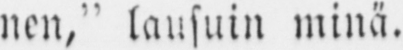nen,” lausuin minä.
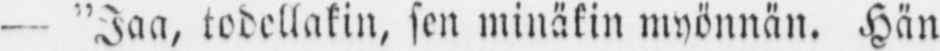— ”Jaa, todellakin, sen minäkin myönnän. Hän
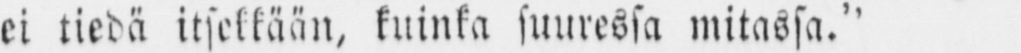ei tiedä itsekkään, kuinka suuressa mitassa.”
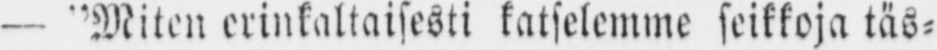— ”Miten erinkaltaisesti katselemme seikkoja täs-
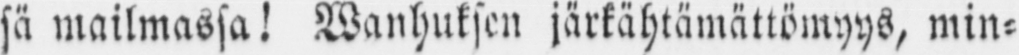sä mailmassa! Wanhuksen järkähtämättömyys, min-
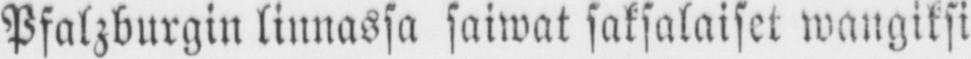Pfalzburgin linnassa saiwat saksalaiset wangiksi
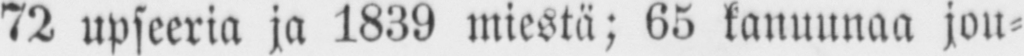72 upseeria ja 1839 miestä; 65 kanuunaa jou-
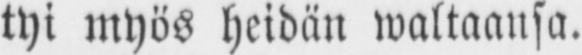tyi myös heidän waltaansa.
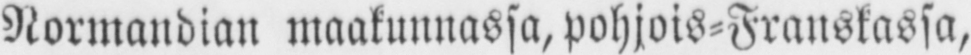Normandian maakunnassa, pohjois-Franskassa,
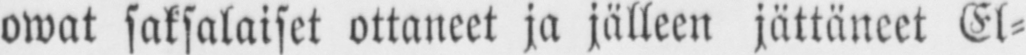owat saksalaiset ottaneet ja jälleen jättäneet El-
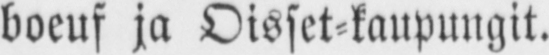boeuf ja Oisset-kaupungit.
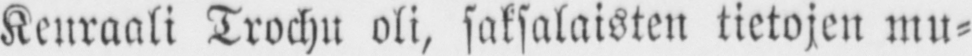Keuraali Trochu oli, saksalaisten tietojen mu-
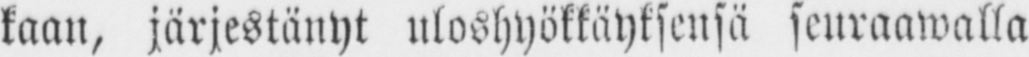kaan, järjestänyt uloshyökkäyksensä seuraawalla
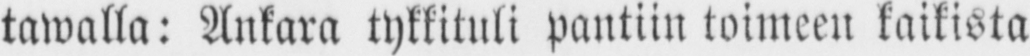tawalla: Ankara tykkituli pantiin toimeen kaikista
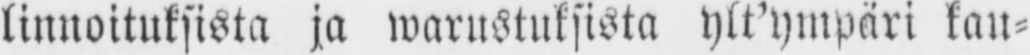linnoituksista ja warustuksista ylt’ympäri kau-
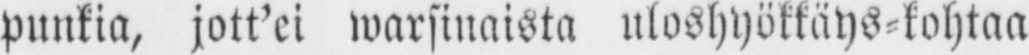punkia, jott'ei warsinaista uloshyökkäys-kohtaa
